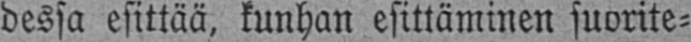dessa esittää, kunhan esittäminen suorite-
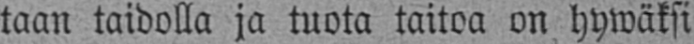taan taidolla ja tuota taitoa on hywäksi
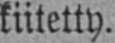kiitetty.
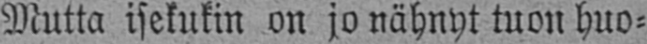Mutta isekukin on jo nähnyt tuon huo-
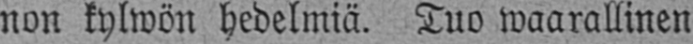non kylwön hedelmiä. Tuo waarallinen
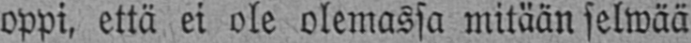oppi, että ei ole olemassa mitään selwää
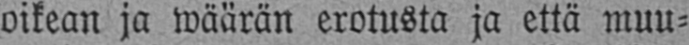oikean ja wäärän erotusta ja että muu-
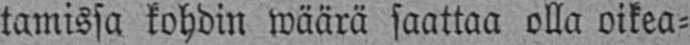tamissa kohdin wäärä saattaa olla oikea-
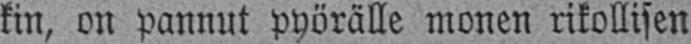kin, on pannut pyörälle monen rikollisen
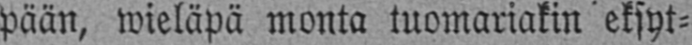pään, wieläpä monta tuomariakin eksyt-
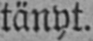tänyt.
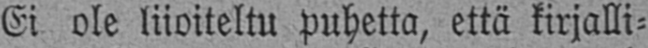Ei ole liioiteltu puhetta, että kirjalli-
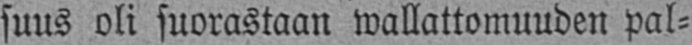suus oli suorastaan wallattomuuden pal-
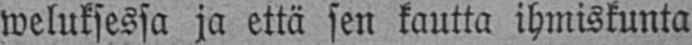weluksessa ja että sen kautta ihmiskunta
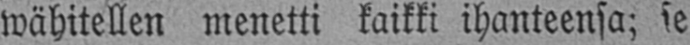wähitellen menetti kaikki ihanteensa; se
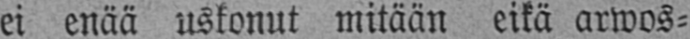ei enää uskonut mitään eikä arwos-
